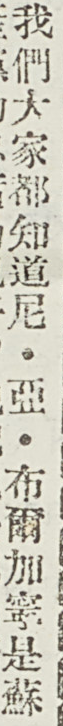我們大家都知道尼・亞・布爾加寧是蘇
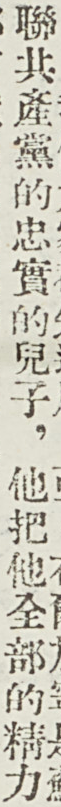聯共產黨的忠實的兒子，他把他全部的精力
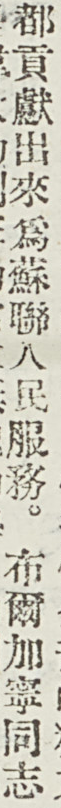都貢獻出來爲蘇聯人民服務。布爾加寧同志
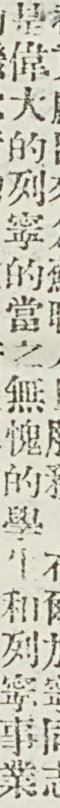是偉大的列寧的當之無愧的學生和列寧事業
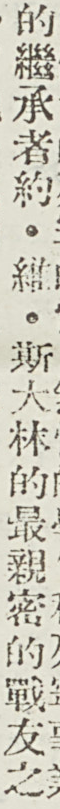的繼承者約・維・斯大林的最親密的戰友之
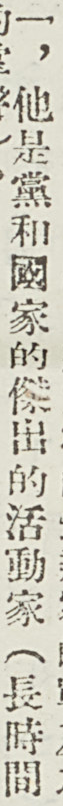一，他是黨和國家的傑出的活動家（長時間
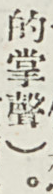的掌聲）。
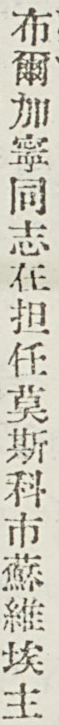布爾加寧同志在担任莫斯科市蘇維埃主
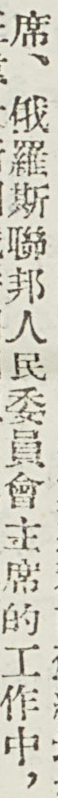席、俄羅斯聯邦人民委員會主席的工作中，
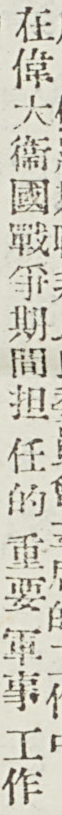在偉大衛國戰爭期間担任的重要軍事工作
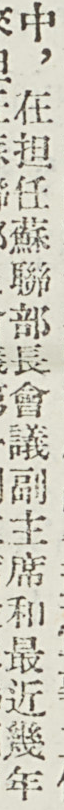中，在担任蘇聯部長會議副主席和最近幾年
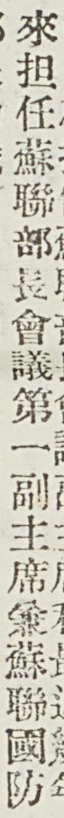來担任蘇聯部長會議第一副主席兼蘇聯國防
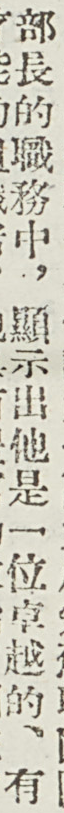部長的職務中，顯示出他是一位卓越的、有
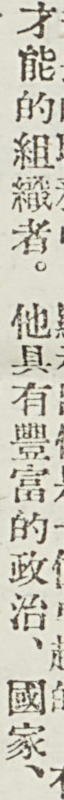才能的組織者。他具有豐富的政治、國家、
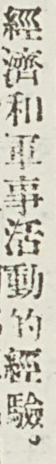經濟和軍事活動的經驗。
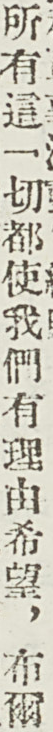所有這一切都使我們有理由希望，布爾
